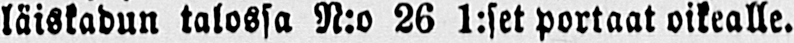läiskadun talossa N:o 26 1:set portaat oikealle.
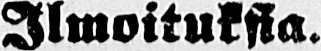Ilmoituksia.
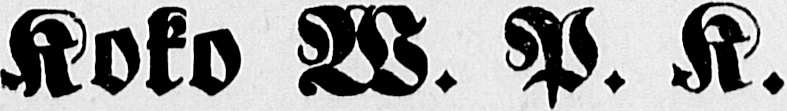Koko W. P. K.
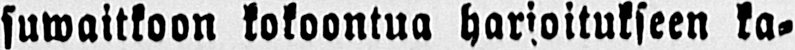suwaitkoon kokoontua harjoitukseen ka-
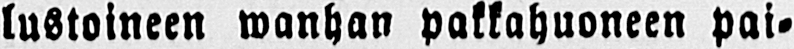lustoineen wanhan pakkahuoneen pai-
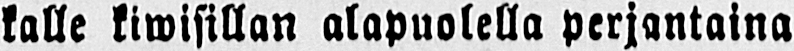kalle kiwisillan alapuolella perjantaina
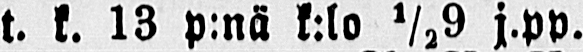t. k. 13 p:nä k:lo ½ 9 j.pp.
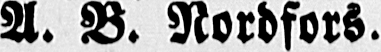A. B. Nordfors.
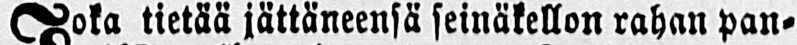Joka tietää jättäneensä seinäkellon rahan pan-
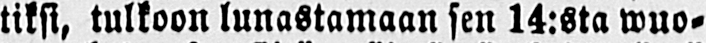tiksi, tulkoon lunastamaan sen 14:sta wuo-
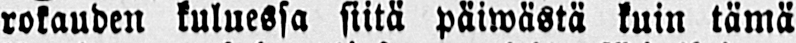rokauden kuluessa siitä päiwästä kuin tämä
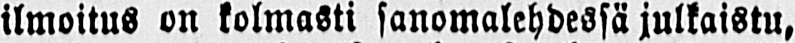ilmoitus on kolmasti sanomalehdessä julkaistu,
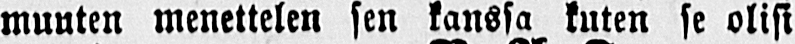muuten menettelen sen kanssa kuten se olisi
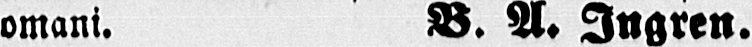omani. B. A. Ingren.
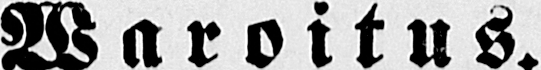Waroitus.
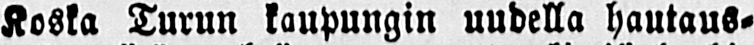Koska Turun kaupungin uudella hautaus-
